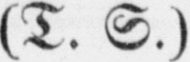(T. S.)
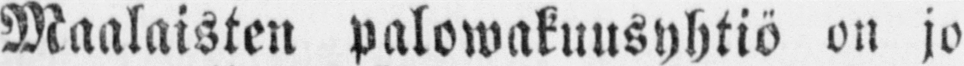Maalaisten palowakuusyhtiö on jo
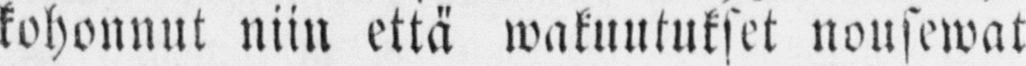kohonnut niin että makuutukset nousewat
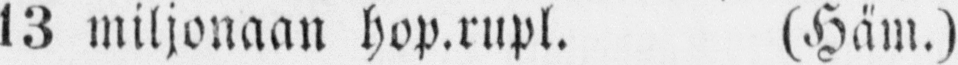13 miljonaan hop.rupl. (Häm.)
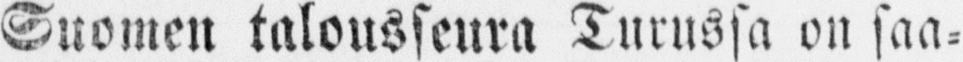Suomen talousseura Turussa on saa-
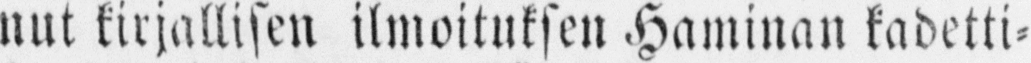nut kirjallisen ilmoituksen Haminan kadetti-
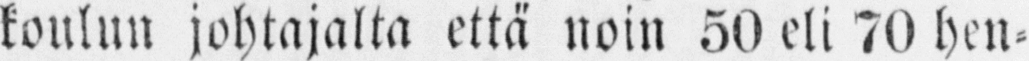koulun johtajalta että noin 50 eli 70 hen-
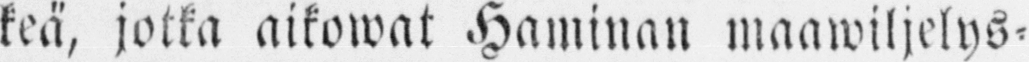keä, jotka aikowat Haminan maawiljelys-
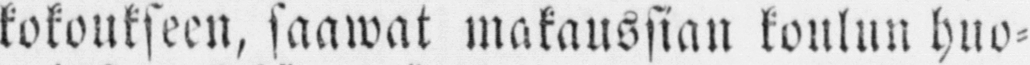kokoukseen, saawat makaussian koulun huo-
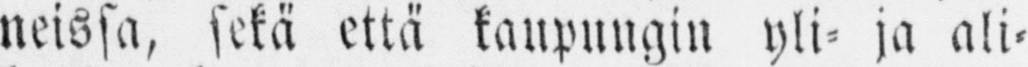neissa, sekä että kaupungin yli- ja ali-
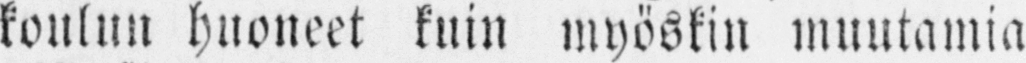koulun huoneet kuin myöskin muutamia
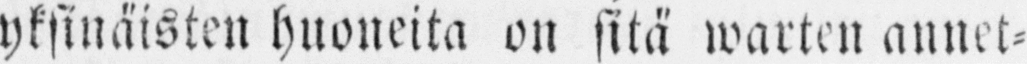yksinäisten huoneita on sitä warten annet-
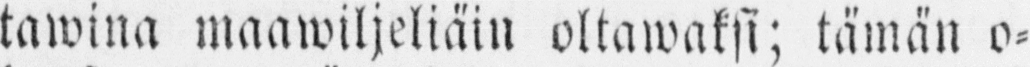tawina maawiljeliäin oltawaksi; tämän o-
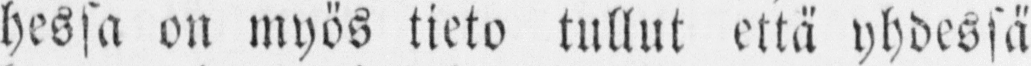hessa on myös tieto tullut että yhdessä
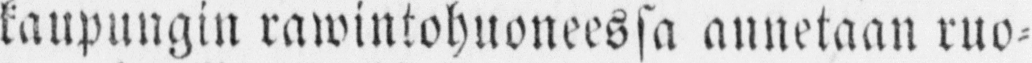kaupungin rawintohuoneessa annetaan ruo-
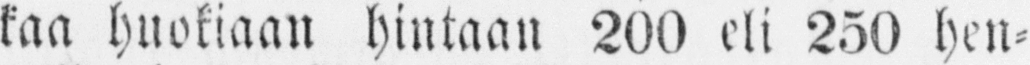kaa huokiaan hintaan 200 eli 250 hen-
